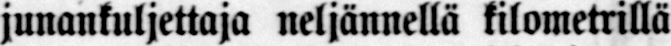junankuljettaja neljännellä kilometrillä
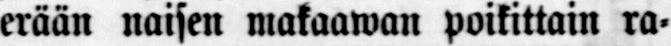erään naisen makaawan poikittain ra-
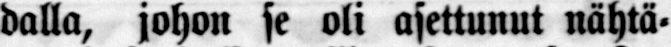dalla, johon se oli asettunut nähtä-
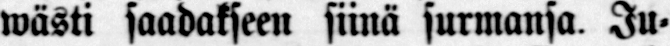wästi saadakseen siinä surmansa. Ju-
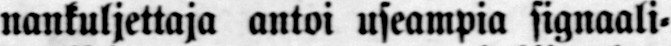nankuljettaja antoi useampia signaali-
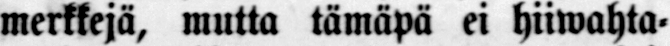merkkejä, mutta tämäpä ei hiiwahta-
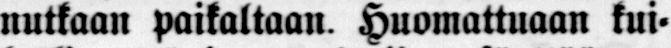nutkaan paikaltaan. Huomattuaan kui-
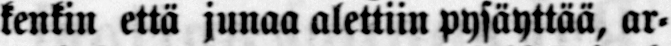kenkin että junaa alettiin pysäyttää, ar-
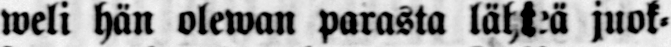weli hän olewan parasta lähteä juok-
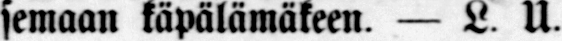semaan käpälämäkeen. — L. U.
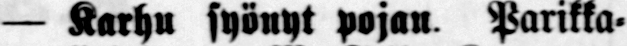— Karhu syönyt pojan Parikka-
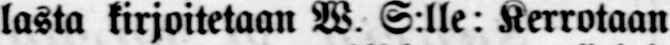lasta kirjoitetaan W. S:lle: Kerrotaan
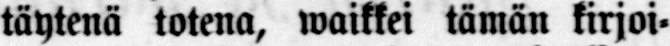täytenä totena, waikkei tämän kirjoi-
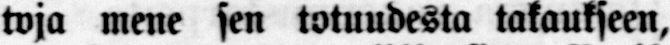toja mene sen totuudesta takaukseen,
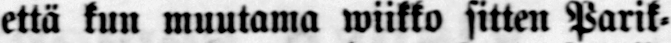että kun muutama wiikko sitten Parik-
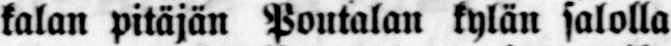kalan pitäjän Poutalan kylän salolla
